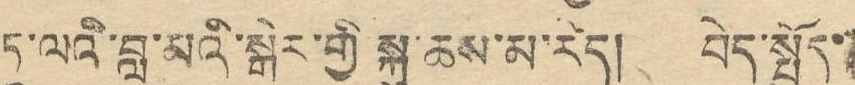ཏཱ་ལའི་བླ་མའི་སྒེར་གྱི་སྐུ་ཆས་མ་རེད། བེད་སྤྱོད་
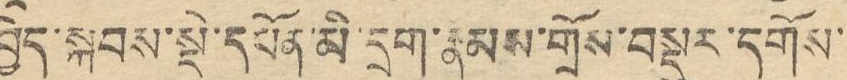བྱེད་སྐབས་སྡེ་དཔོན་མི་དྲག་རྣམས་གྲོས་བསྡུར་དགོས་
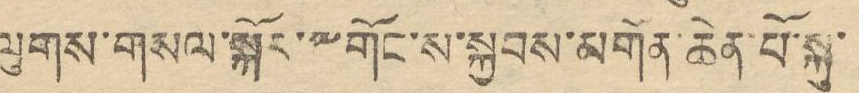ལུགས་གསལ་སྐོར་༸གོང་ས་སྐྱབས་མགོན་ཆེན་པོ་སྐུ་
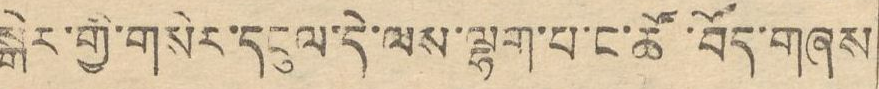སྒེར་གྱི་གསེར་དངུལ་དེ་ལས་ལྷག་པ་ང་ཚོ་བོད་གཞས
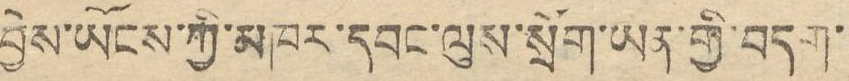བྱེས་ཡོངས་ཀྱི་མཁར་དབང་ལུས་སྲོག་ཡན་གྱི་བདག་
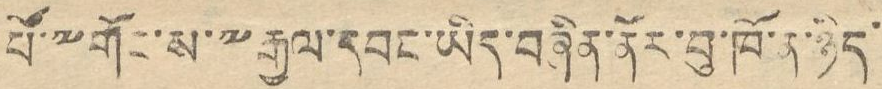པོ་༸གོང་ས་༸རྒྱལ་དབང་ཡིད་བཞིན་ནོར་བུ་ཁོ་ན་ཉིད་
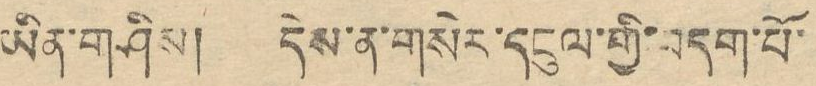ཡིན་གཤིས། དེས་ན་གསེར་དངུལ་གྱི་བདག་པོ་
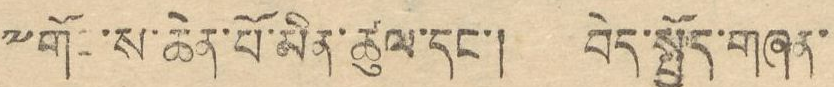༸གོང་ས་ཆེན་པོ་མིན་ཚུལ་དང་། བེད་སྤྱོད་གཞན་
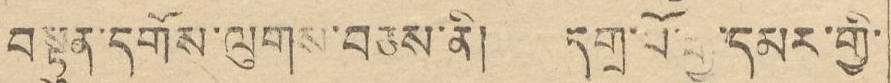བསྟུན་དགོས་ལུགས་བཅས་ནི། དགྲ་བོ་རྒྱ་དམར་གྱི་
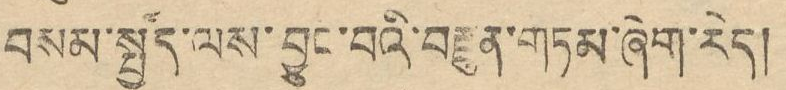བསམ་སྤྱོད་ལས་བྱུང་བའི་བརྫུན་གཏམ་ཞེག་རེད།
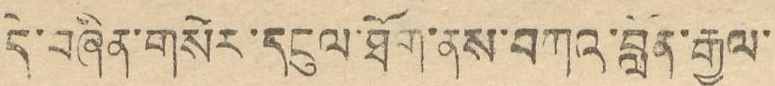དེ་བཞིན་གསེར་དངུལ་ཐོག་ནས་བཀའ་བློན་རྒྱལ་
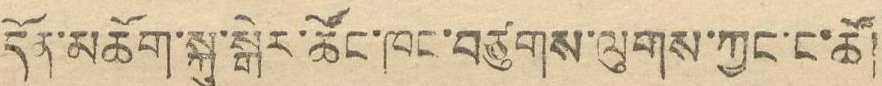དོན་མཆོག་སྐུ་སྒེར་ཚོང་ཁང་བཙུགས་ལུགས་ཀྱང་ང་ཚོ།
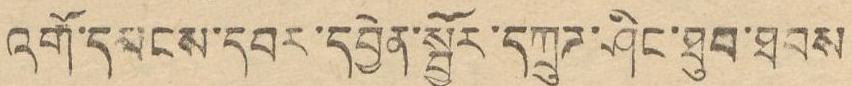འགོ་དམངས་དབར་དབྱེན་སྦྱོར་དཀྲུཊ་ཤིང་ཐུབ་ཐབས
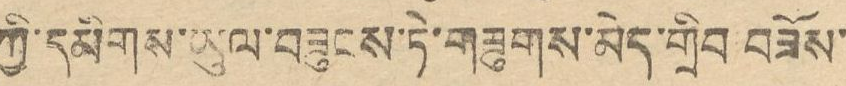ཀྱི་དམིགས་ཡུལ་བཟུངས་ཏེ་གཟུགས་མེད་གྲིབ བཟོས་
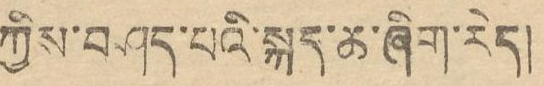ཀྱིས་བཤད་པའི་སྐད་ཆ་ཞིག་རེད།
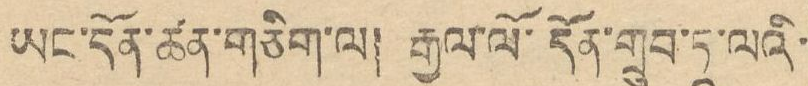ཡང་དོན་ཚན་གཅིག་ལ། རྒྱལ་ལོ་དོན་གྲུབ་ཏཱ་ལའི་
